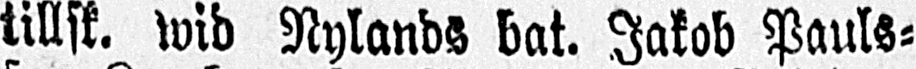tillsk. wid Nylands bat. Jakob Pauls-
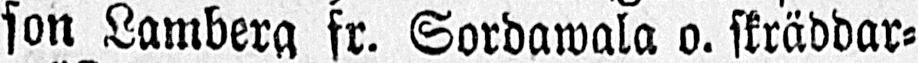son Lamberg fr. Sordawala o. skräddar-
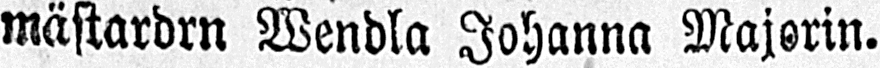mästardrn Wendla Johanna Majorin.
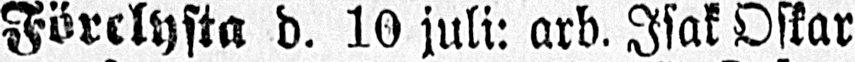Förelysta d. 10 juli: arb. Isak Oskar
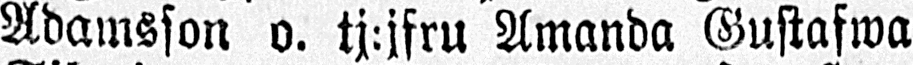Adamsson o. tj:jfru Amanda Gustafwa
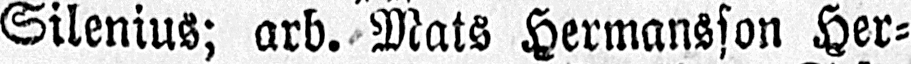Silenius; arb. Mats Hermansson Her-
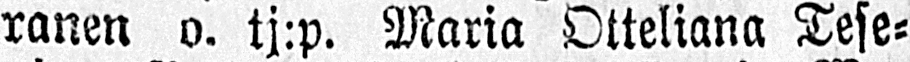ranen o. tj:p. Maria Otteliana Tese-
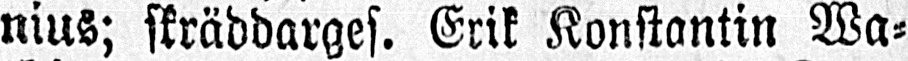nius; skräddarges. Erik Konstantin Wa-
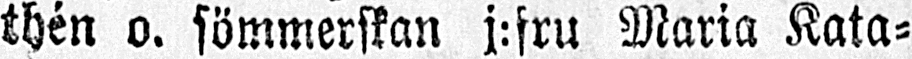thén o. sömmerskan j:fru Maria Kata-
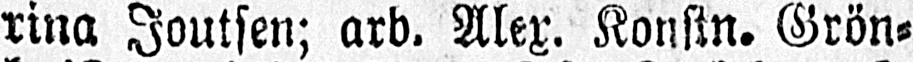rina Joutsen; arb. Alex. Konstn. Grön-
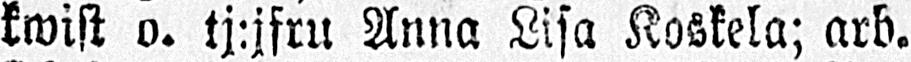kwist o. tj:jfru Anna Lisa Koskela; arb.
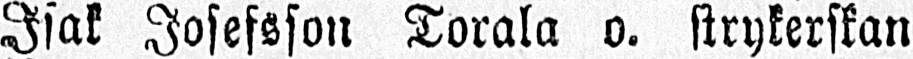Isak Josefsson Torala o. strykerskan
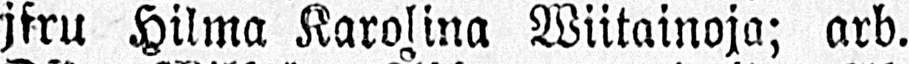jfru Hilma Karolina Wiitainoja; arb.
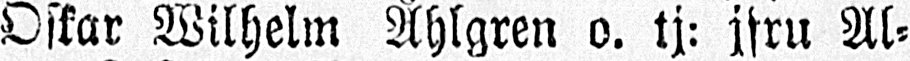Oskar Wilhelm Åhlgren o. tj: jfru Al-
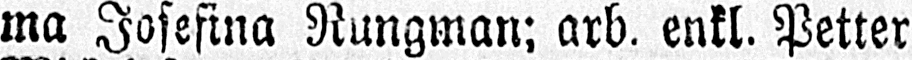ma Josefina Rungman; arb. enkl. Petter
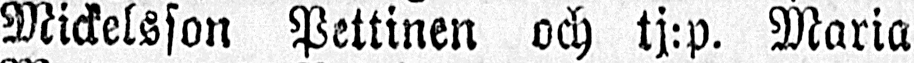Mickelsson Pettinen och tj:p. Maria
